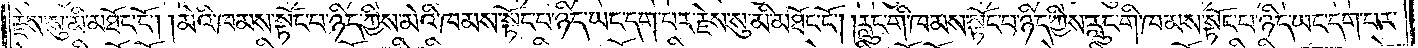རྗེས་སུ་མི་མཐོང་ངོ༌། །མེའི་ཁམས་སྟོང་པ་ཉིད་ཀྱིས་མེའི་ཁམས་སྟོང་པ་ཉིད་ཡང་དག་པར་རྗེས་སུ་མི་མཐོང་ངོ༌། །རླུང་གི་ཁམས་སྟོང་པ་ཉིད་ཀྱིས་རླུང་གི་ཁམས་སྟོང་པ་ཉིད་ཡང་དག་པར་
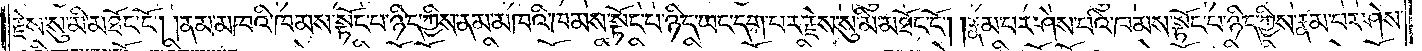རྗེས་སུ་མི་མཐོང་ངོ༌། །ནམ་མཁའི་ཁམས་སྟོང་པ་ཉིད་ཀྱིས་ནམ་མཁའི་ཁམས་སྟོང་པ་ཉིད་ཡང་དག་པར་རྗེས་སུ་མི་མཐོང་ངོ༌། །རྣམ་པར་ཤེས་པའི་ཁམས་སྟོང་པ་ཉིད་ཀྱིས་རྣམ་པར་ཤེས་
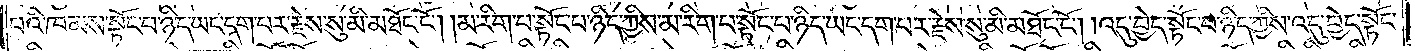པའི་ཁམས་སྟོང་པ་ཉིད་ཡང་དག་པར་རྗེས་སུ་མི་མཐོང་ངོ༌། །མ་རིག་པ་སྟོང་པ་ཉིད་ཀྱིས་མ་རིག་པ་སྟོང་པ་ཉིད་ཡང་དག་པར་རྗེས་སུ་མི་མཐོང་ངོ༌། །འདུ་བྱེད་སྟོང་པ་ཉིད་ཀྱིས་འདུ་བྱེད་སྟོང་
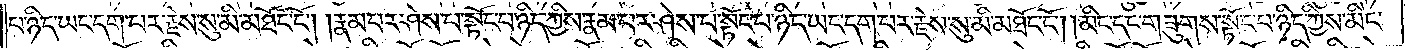པ་ཉིད་ཡང་དག་པར་རྗེས་སུ་མི་མཐོང་ངོ༌། །རྣམ་པར་ཤེས་པ་སྟོང་པ་ཉིད་ཀྱིས་རྣམ་པར་ཤེས་པ་སྟོང་པ་ཉིད་ཡང་དག་པར་རྗེས་སུ་མི་མཐོང་ངོ༌། །མིང་དང་གཟུགས་སྟོང་པ་ཉིད་ཀྱིས་མིང་
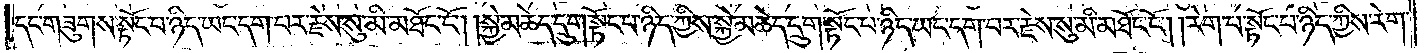དང་གཟུགས་སྟོང་པ་ཉིད་ཡང་དག་པར་རྗེས་སུ་མི་མཐོང་ངོ༌། །སྐྱེ་མཆེད་དྲུག་སྟོང་པ་ཉིད་ཀྱིས་སྐྱེ་མཆེད་དྲུག་སྟོང་པ་ཉིད་ཡང་དག་པར་རྗེས་སུ་མི་མཐོང་ངོ༌། །རེག་པ་སྟོང་པ་ཉིད་ཀྱིས་རེག་
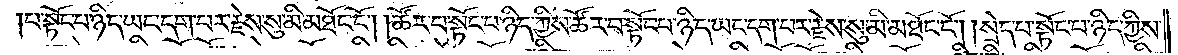པ་སྟོང་པ་ཉིད་ཡང་དག་པར་རྗེས་སུ་མི་མཐོང་ངོ༌། །ཚོར་བ་སྟོང་པ་ཉིད་ཀྱིས་ཚོར་བ་སྟོང་པ་ཉིད་ཡང་དག་པར་རྗེས་སུ་མི་མཐོང་ངོ༌། །སྲེད་པ་སྟོང་པ་ཉིད་ཀྱིས་
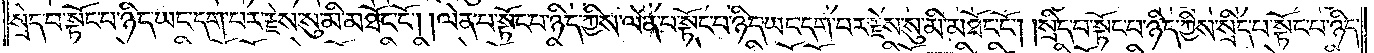སྲེད་པ་སྟོང་པ་ཉིད་ཡང་དག་པར་རྗེས་སུ་མི་མཐོང་ངོ༌། །ལེན་པ་སྟོང་པ་ཉིད་ཀྱིས་ལེན་པ་སྟོང་པ་ཉིད་ཡང་དག་པར་རྗེས་སུ་མི་མཐོང་ངོ༌། །སྲིད་པ་སྟོང་པ་ཉིད་ཀྱིས་སྲིད་པ་སྟོང་པ་ཉིད་
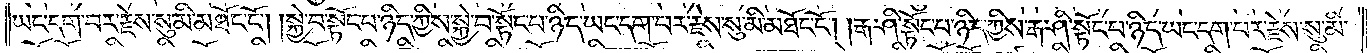ཡང་དག་པར་རྗེས་སུ་མི་མཐོང་ངོ༌། །སྐྱེ་བ་སྟོང་པ་ཉིད་ཀྱིས་སྐྱེ་བ་སྟོང་པ་ཉིད་ཡང་དག་པར་རྗེས་སུ་མི་མཐོང་ངོ༌། །རྒ་ཤི་སྟོང་པ་ཉིད་ཀྱིས་རྒ་ཤི་སྟོང་པ་ཉིད་ཡང་དག་པར་རྗེས་སུ་མི་
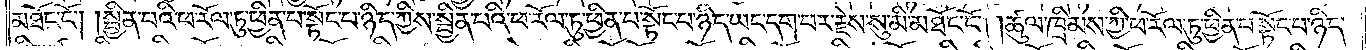མཐོང་ངོ༌། །སྦྱིན་པའི་ཕ་རོལ་ཏུ་ཕྱིན་པ་སྟོང་པ་ཉིད་ཀྱིས་སྦྱིན་པའི་ཕ་རོལ་ཏུ་ཕྱིན་པ་སྟོང་པ་ཉིད་ཡང་དག་པར་རྗེས་སུ་མི་མཐོང་ངོ༌། །ཚུལ་ཁྲིམས་ཀྱི་ཕ་རོལ་ཏུ་ཕྱིན་པ་སྟོང་པ་ཉིད་
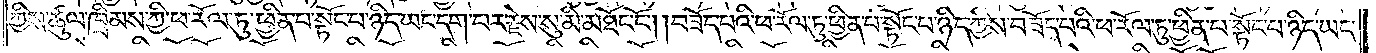ཀྱིས་ཚུལ་ཁྲིམས་ཀྱི་ཕ་རོལ་ཏུ་ཕྱིན་པ་སྟོང་པ་ཉིད་ཡང་དག་པར་རྗེས་སུ་མི་མཐོང་ངོ༌། །བཟོད་པའི་ཕ་རོལ་ཏུ་ཕྱིན་པ་སྟོང་པ་ཉིད་ཀྱིས་བཟོད་པའི་ཕ་རོལ་ཏུ་ཕྱིན་པ་སྟོང་པ་ཉིད་ཡང་
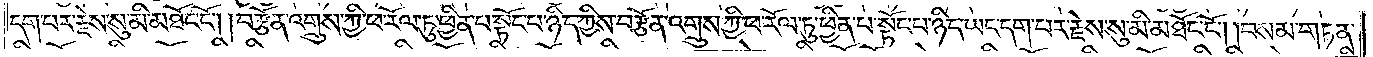དག་པར་རྗེས་སུ་མི་མཐོང་ངོ༌། །བརྩོན་འགྲུས་ཀྱི་ཕ་རོལ་ཏུ་ཕྱིན་པ་སྟོང་པ་ཉིད་ཀྱིས་བརྩོན་འགྲུས་ཀྱི་ཕ་རོལ་ཏུ་ཕྱིན་པ་སྟོང་པ་ཉིད་ཡང་དག་པར་རྗེས་སུ་མི་མཐོང་ངོ༌། །བསམ་གཏན་
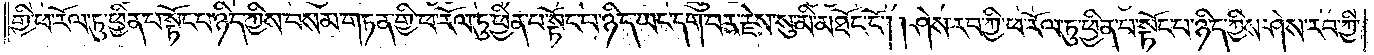གྱི་ཕ་རོལ་ཏུ་ཕྱིན་པ་སྟོང་པ་ཉིད་ཀྱིས་བསམ་གཏན་གྱི་ཕ་རོལ་ཏུ་ཕྱིན་པ་སྟོང་པ་ཉིད་ཡང་དག་པར་རྗེས་སུ་མི་མཐོང་ངོ༌། །ཤེས་རབ་ཀྱི་ཕ་རོལ་ཏུ་ཕྱིན་པ་སྟོང་པ་ཉིད་ཀྱིས་ཤེས་རབ་ཀྱི་
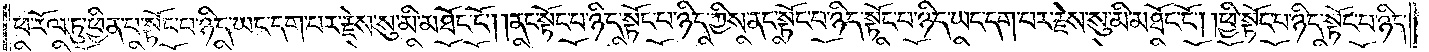ཕ་རོལ་ཏུ་ཕྱིན་པ་སྟོང་པ་ཉིད་ཡང་དག་པར་རྗེས་སུ་མི་མཐོང་ངོ༌། །ནང་སྟོང་པ་ཉིད་སྟོང་པ་ཉིད་ཀྱིས་ནང་སྟོང་པ་ཉིད་སྟོང་པ་ཉིད་ཡང་དག་པར་རྗེས་སུ་མི་མཐོང་ངོ༌། །ཕྱི་སྟོང་པ་ཉིད་སྟོང་པ་ཉིད་
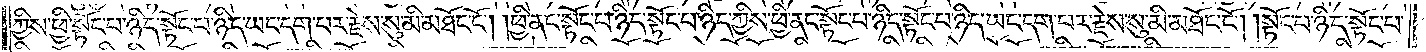ཀྱིས་ཕྱི་སྟོང་པ་ཉིད་སྟོང་པ་ཉིད་ཡང་དག་པར་རྗེས་སུ་མི་མཐོང་ངོ༌། །ཕྱི་ནང་སྟོང་པ་ཉིད་སྟོང་པ་ཉིད་ཀྱིས་ཕྱི་ནང་སྟོང་པ་ཉིད་སྟོང་པ་ཉིད་ཡང་དག་པར་རྗེས་སུ་མི་མཐོང་ངོ༌། །སྟོང་པ་ཉིད་སྟོང་པ་
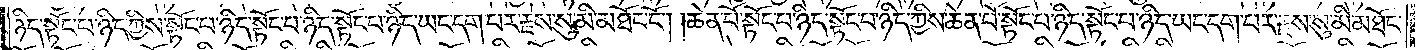ཉིད་སྟོང་པ་ཉིད་ཀྱིས་སྟོང་པ་ཉིད་སྟོང་པ་ཉིད་སྟོང་པ་ཉིད་ཡང་དག་པར་རྗེས་སུ་མི་མཐོང་ངོ༌། །ཆེན་པོ་སྟོང་པ་ཉིད་སྟོང་པ་ཉིད་ཀྱིས་ཆེན་པོ་སྟོང་པ་ཉིད་སྟོང་པ་ཉིད་ཡང་དག་པར་རྗེས་སུ་མི་མཐོང་
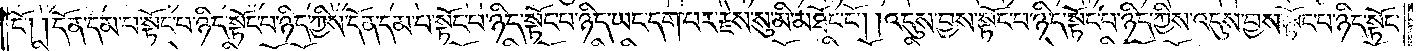ངོ༌། །དོན་དམ་པ་སྟོང་པ་ཉིད་སྟོང་པ་ཉིད་ཀྱིས་དོན་དམ་པ་སྟོང་པ་ཉིད་སྟོང་པ་ཉིད་ཡང་དག་པར་རྗེས་སུ་མི་མཐོང་ངོ༌། །འདུས་བྱས་སྟོང་པ་ཉིད་སྟོང་པ་ཉིད་ཀྱིས་འདུས་བྱས་སྟོང་པ་ཉིད་སྟོང་
